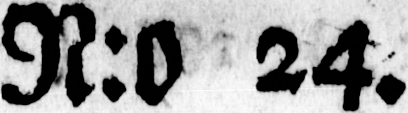N:o 24.
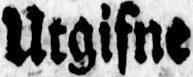Utgifne
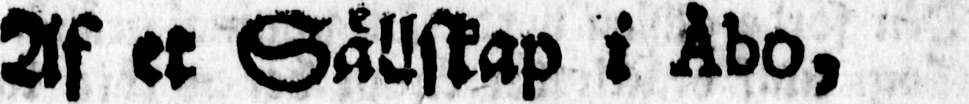Af et Sällskap i Åbo,
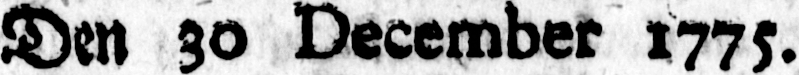Den 30 December 1775.
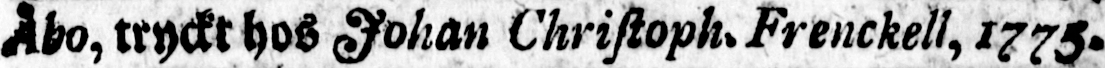Åbo, tryckt hos Johan Christoph. Frenckell, 1775.
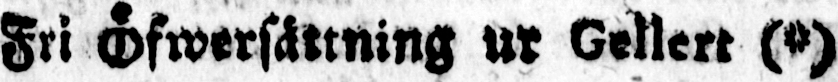Fri Öfwersättning ur Gellert (*)
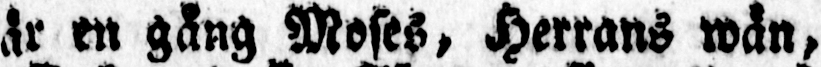När en gång Moses, Herrans wän,
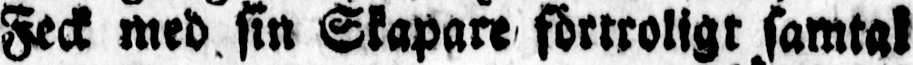Feck med sin Skapare förtroligt samtal
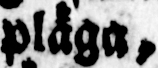pläga,
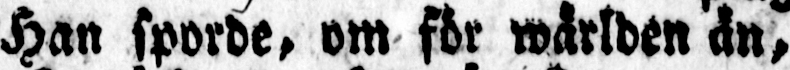Han sporde, om för wärlden än,
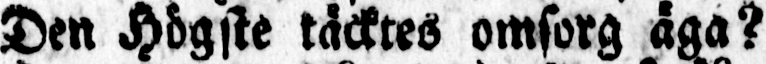Den Högste täcktes omsorg äga?
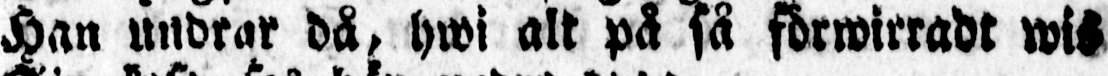Han undrar då, hwi alt på så förwirradt wis
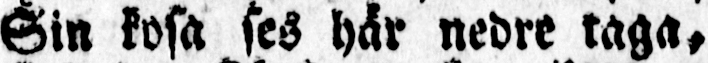Sin kosa ses här nedre taga,
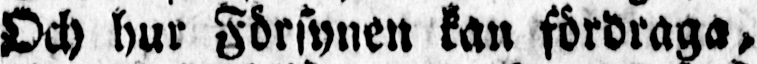Och hur Försynen kan fördraga,
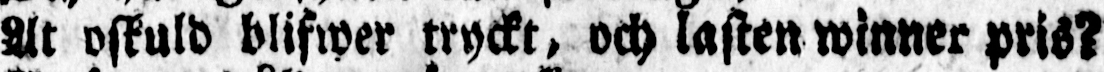At oskuld blifwer tryckt, och lasten winner pris?
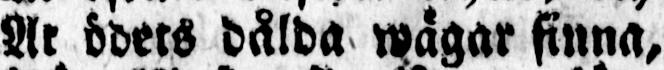At ödets bålda wägar finna,
